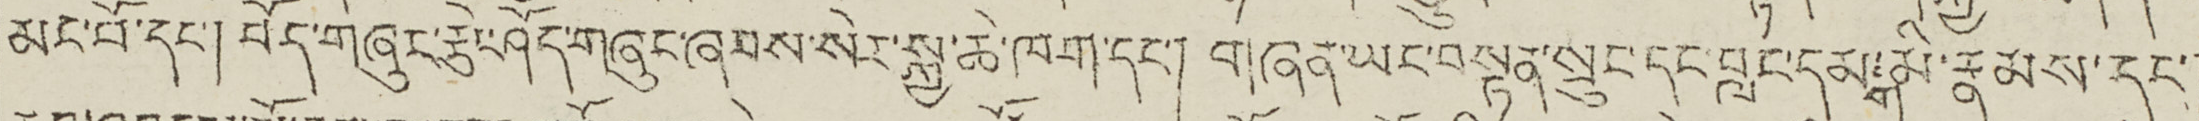མང་པོ་དང་། བོད་གཞུང་རྩེང་ཤོད་གཞུང་ཞབས་སེར་སྐྱ་ཆེ་ཁག་དང་། གཞན་ཡང་བསྟན་སྲུང་དང་བླང་དམ་གམི་རྣམས་དང་།
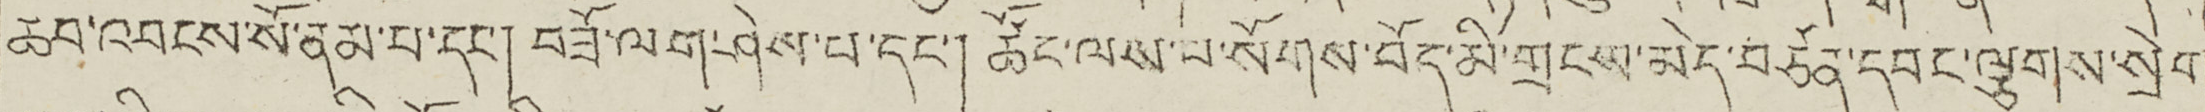ཆབ་འབངས་སོ་ནམ་པ་དང་། བཟོ་ལག་ཤེས་པ་དང་། ཚོང་ལས་པ་སོགས་བོད་མི་གྲངས་མེད་བཙན་དབང་ལྕགས་སྲེག་
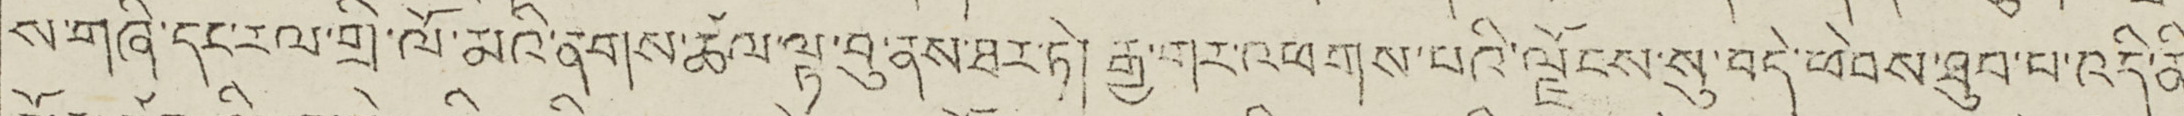ས་གཞི་དང་རལ་གྲི་ལོ་མའི་ནགས་ཚལ་ལྟ་བུ་ནས་ཐར་ཏེ། རྒྱ་གར་འཕགས་པའི་སྗོངས་སུ་བདེ་ཕེབས་ཐུབ་པ་འདི་ནི་
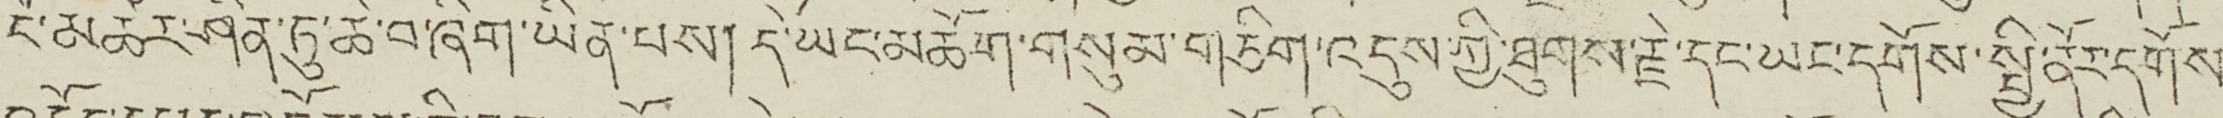ངོ་མཚར་ཤིན་ཏུ་ཆེ་བ་ཞིག་ཡིན་པས། དེ་ཡང་མཆོག་གསུམ་གཅིག་འདུས་ཀྱི་ཐུགས་རྗེ་དང་ཡང་དགོས་སྤྱི་ནོར་དགོས་
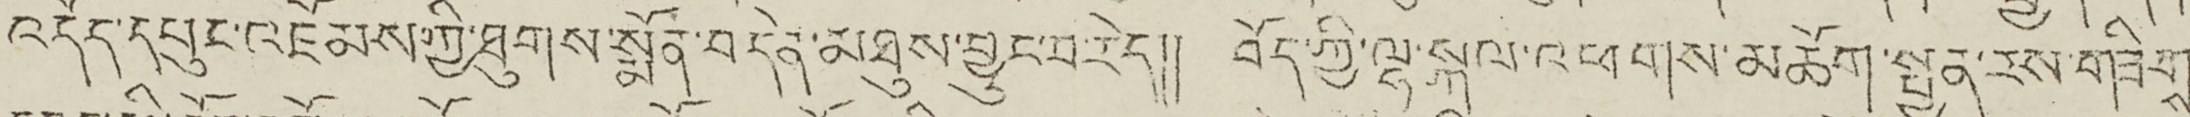འདོད་དཔུང་འཇོམས་ཀྱི་ཐུག་སྨོན་བདེན་མཐུས་བྱུང་བ་རེད།། བོད་ཀྱི་ལྷ་སྐལ་འཕགས་མཆོག་སྤྱན་རས་གཟིགས་
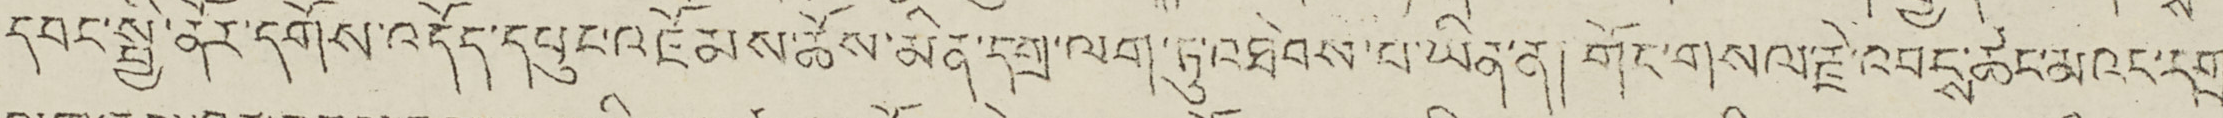དབང་སྤྱི་ནོར་དགོས་འདོད་དཔུང་འཇོམས་ཆོས་མིན་དགྲ་ལག་ཏུ་འཐེབས་པ་ཡིན་ན། གོང་གསལ་རྗེ་འབངས་ཚང་མའང་དགྲ་
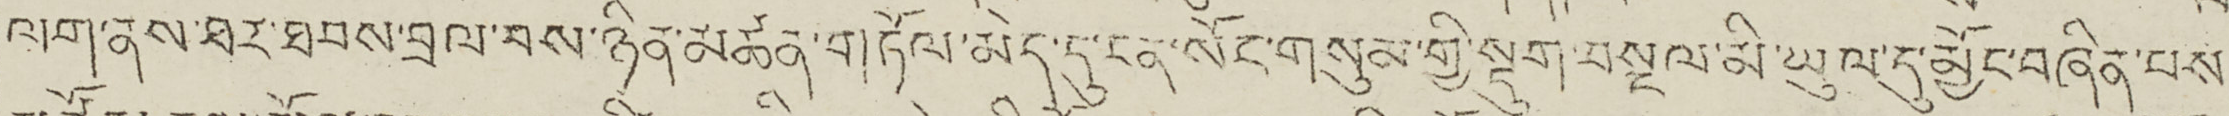ལག་ནས་ཐར་ཐབས་བྲལ་བས་ཉིན་མཚན་གཏོལ་མེད་དུ་ངན་སོང་གསུམ་གྱི་སྡུག་བསྔལ་མི་ཡུལ་དུ་མྱོང་བཞིན་པས་
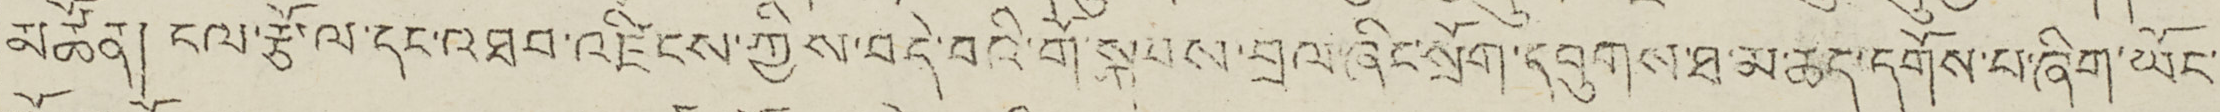མཚོན། ངལ་ཙོ་ལ་དང་འཐབ་འཛིངས་ཀྱིས་བདེ་བའི་གོ་སྐབས་བྲལ་ཞིང་སྲོག་དབུགས་ཐ་མ་ཆད་དགོས་པ་ཞིག་ཡོང་
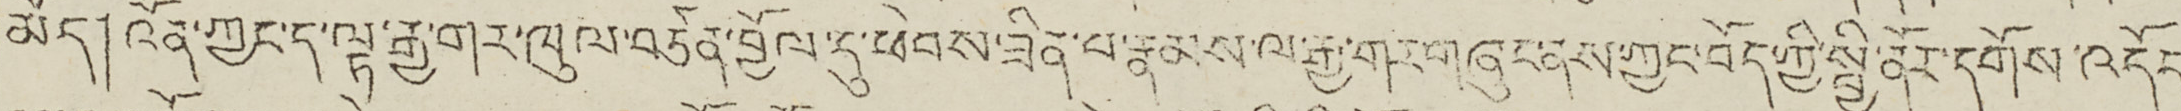མོད། འོན་ཀྱང་ད་ལྟ་རྒྱ་གར་ཁུལ་བཙན་བྱོལ་དུ་ཕེབས་ཟིན་པ་རྣམས་ལ་རྒྱ་གར་གཞུང་ནས་ཀྱང་བོད་ཀྱི་སྤྱི་ནོར་དགོས་འདོད་
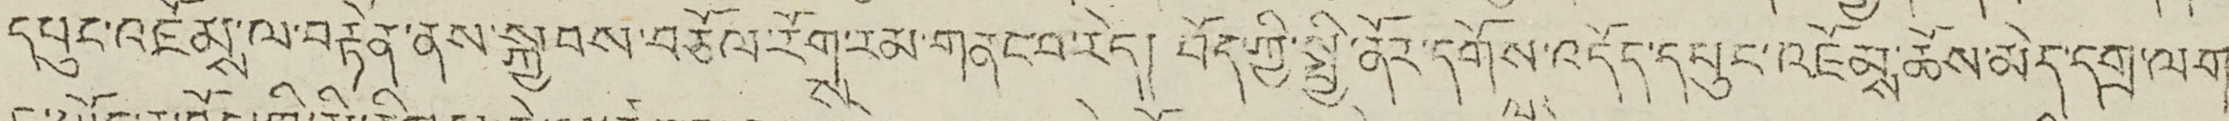དཔུང་འཇོམས་ལ་བརྟེན་ནས་སྐྱབས་བཅོལ་རོགས་རམ་གནང་བ་རེད། བོད་ཀྱི་སྤྱི་ནོར་དགོས་འདོད་དཔུང་འཇོམས་ཆོས་མེད་དགྲ་ལག
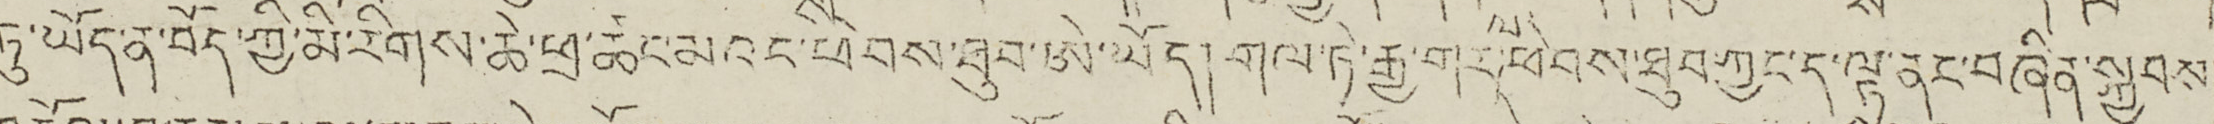ཏུ་ཡོད་ན་བོད་ཀྱི་མི་རིགས་ཆེ་ཕྲ་ཚང་མའང་ཕེབས་ཐུབ་ཨེ་ཡོད། གལ་ཏེ་རྒྱ་གར་ལ་ཕེབས་ཐུབ་ཀྱང་ད་ལྟ་ནང་བཞིན་སྐྱབས་
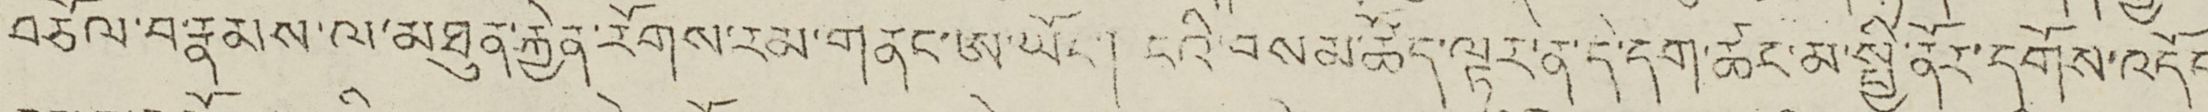བཅོལ་བ་རྣམས་ལ་མཐུན་རྐྱེན་རོགས་རམ་གནང་ཨ་ཡོང་། ངའི་བསམ་ཚོད་ལྟར་ན་དེ་དག་ཚང་མ་སྤྱི་ནོར་དགོས་འདོད་
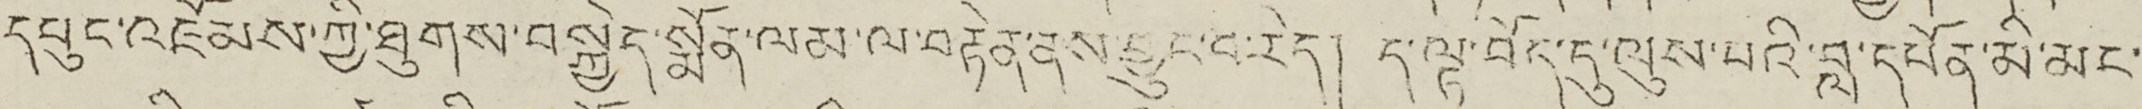དཔུང་འཇོམས་ཀྱི་ཐུགས་བསྐྱེད་སྨོན་ལམ་ལ་བརྟེན་ནས་བྱུང་བ་རེད། ད་ལྟ་བོད་དུ་ལུས་པའི་བླ་དཔོན་མི་མང་
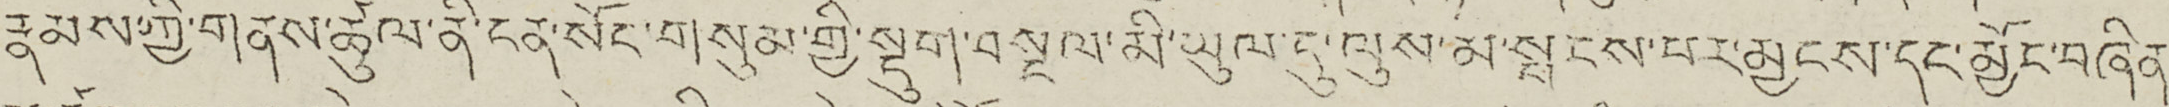རྣམས་ཀྱི་གནས་ཚུལ་ནི་ངན་སོང་གསུམ་གྱི་སྡུག་བསྔལ་མི་ཡུལ་དུ་ལུས་མ་སྤངས་པར་མྱངས་དང་མྱོང་བཞིན་
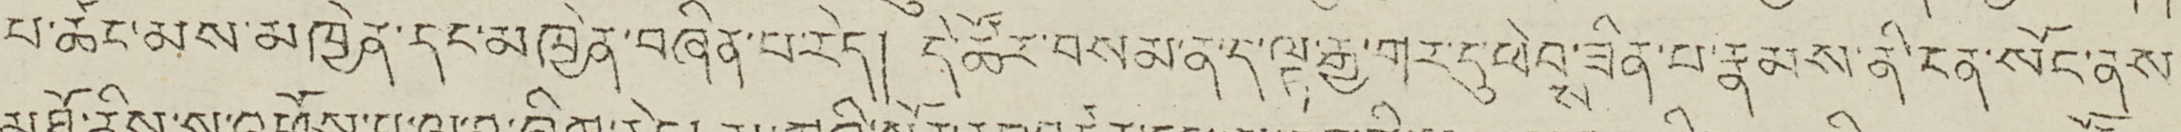པ་ཚང་མས་མཁྱེན་དང་མཁྱེན་བཞིན་པ་རེད། དེ་ཚོར་བསམ་ན་ད་ལྟ་རྒྱ་གར་དུ་ཕེབས་ཟིན་པ་རྣམས་ནི་ངན་སོང་ནས་
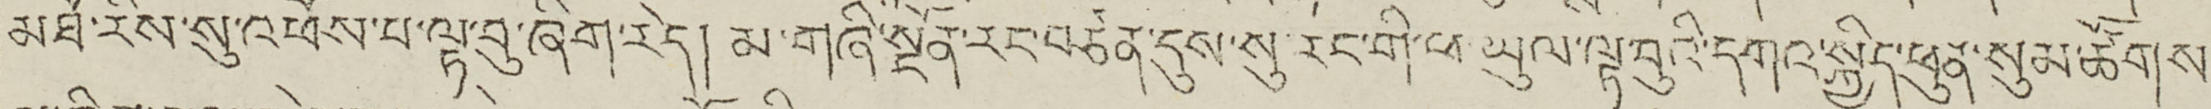མཐོ་རིས་སུ་འཕོས་པ་ལྟ་བུ་ཞིག་རེད། མ་གཞི་སྔོན་རང་བཙན་དུས་སུ་རང་གི་ཕ་ཡུལ་ལྟ་བུའི་དགའ་སྐྱིད་ཕུན་སུམ་ཚོགས་
